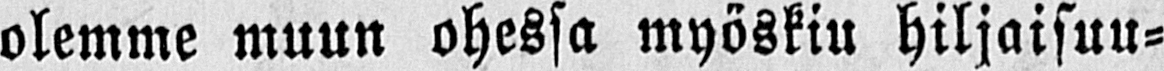olemme muun ohessa myöskin hiljaisuu-
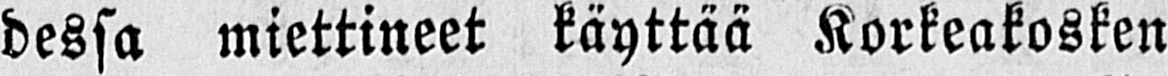dessa miettineet käyttää Korkeakosken
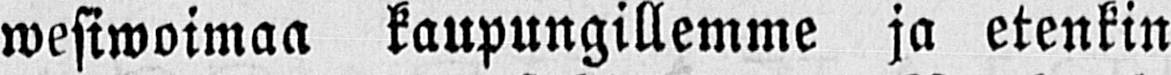wesiwoimaa kaupungillemme ja etenkin
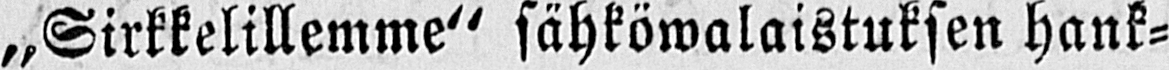„Sirkkelillemme" sähköwalaistuksen hank-
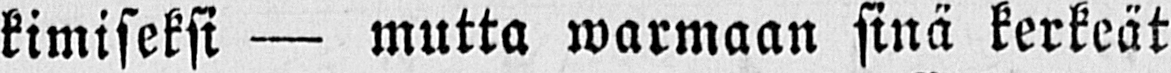kimiseksi — mutta warmaan sinä kerkeät
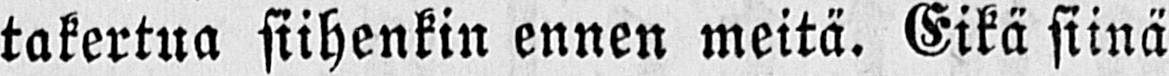takertua siihenkin ennen meitä. Eikä siinä
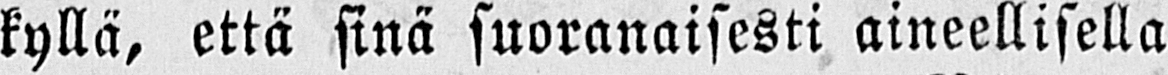kyllä, että sinä suoranaisesti aineellisella
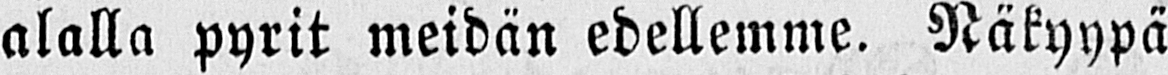alalla pyrit meidän edellemme. Näkyypä
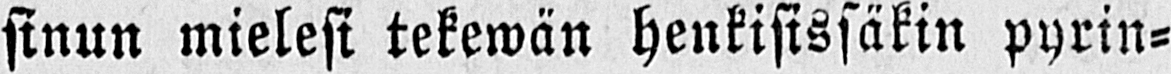sinun mielesi tekewän henkisissäkin pyrin-
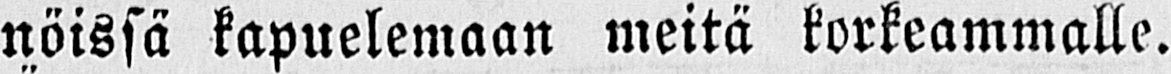nöissä kapuelemaan meitä korkeammalle.
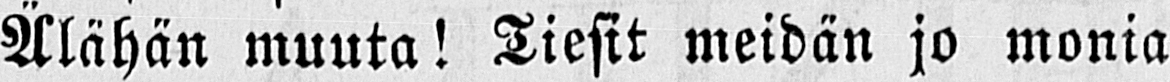Älähän muuta! Tiesit meidän jo monia
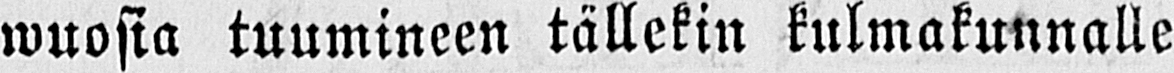wuosia tuumineen tällekin kulmakunnalle
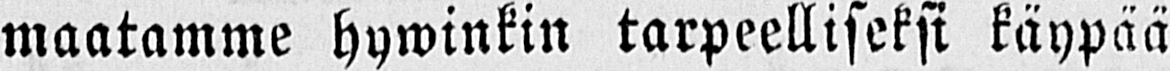maatamme hywinkin tarpeelliseksi käypää
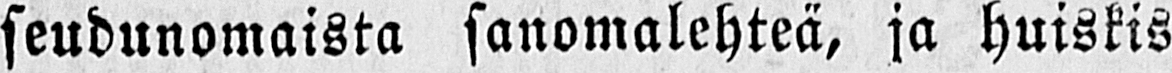seudunomaista sanomalehteä, ja huiskis
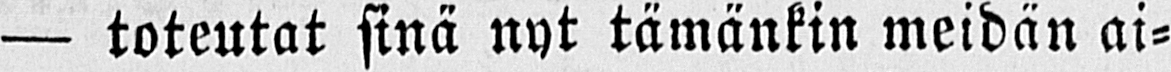— toteutat sinä nyt tämänkin meidän ai-
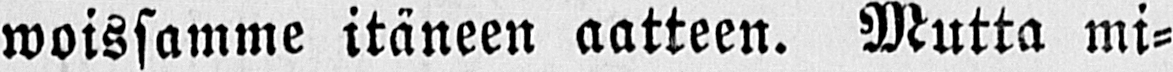woissamme itäneen aatteen. Mutta mi-
